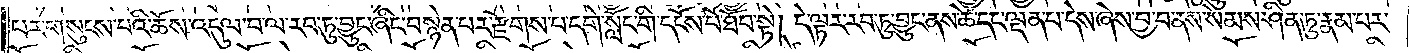པར་གསུངས་པའི་ཆོས་འདུལ་བ་ལ་རབ་ཏུ་བྱུང་ཞིང་བསྙེན་པར་རྫོགས་པ་དགེ་སློང་གི་དངོས་པོ་ཐོབ་སྟེ། དེ་ལྟར་རབ་ཏུ་བྱུང་ནས་ཚེ་དང་ལྡན་པ་དེས་ཞེས་བྱ་བ་ནས་སེམས་ཤིན་ཏུ་རྣམ་པར་
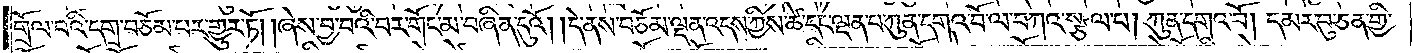གྲོལ་བའི་དགྲ་བཅོམ་པར་གྱུར་ཏོ། །ཞེས་བྱ་བའི་བར་གོང་མ་བཞིན་དུའོ། །དེ་ནས་བཅོམ་ལྡན་འདས་ཀྱིས་ཚེ་དང་ལྡན་པ་ཀུན་དགའ་བོ་ལ་བཀའ་སྩལ་པ། ཀུན་དགའ་བོ། དམར་བུ་ཅན་གྱི་
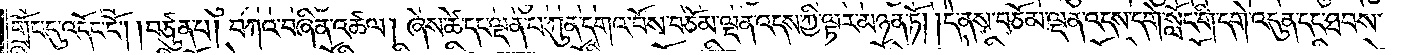གྲོང་དུ་འདོང་ངོ༌། །བཙུན་པ། བཀའ་བཞིན་འཚལ། ཞེས་ཚེ་དང་ལྡན་པ་ཀུན་དགའ་བོས་བཅོམ་ལྡན་འདས་ཀྱི་ལྟར་མཉན་ཏོ། །དེ་ནས་བཅོམ་ལྡན་འདས་དགེ་སློང་གི་དགེ་འདུན་དང་ཐབས་
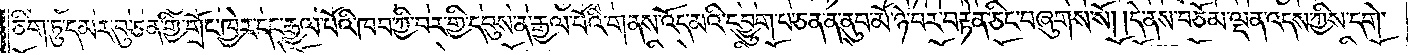ཅིག་ཏུ་དམར་བུ་ཅན་གྱི་གྲོང་ཁྱེར་དང་རྒྱལ་པོའི་ཁབ་ཀྱི་བར་གྱི་དབུས་ན་རྒྱལ་པོའི་གནས་འོད་མའི་དབྱུག་པ་ཅན་ན་ནུབ་མོ་ཉེ་བར་བརྟེན་ཅིང་བཞུགས་སོ། །དེ་ནས་བཅོམ་ལྡན་འདས་ཀྱིས་དགེ་
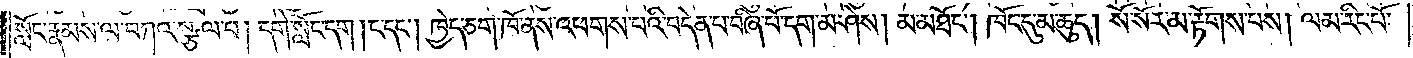སློང་རྣམས་ལ་བཀའ་སྩལ་པ། དགེ་སློང་དག །ང་དང༌། ཁྱེད་ཅག་ཁོ་ནས་འཕགས་པའི་བདེན་པ་བཞི་པོ་དག་མ་ཤེས། མ་མཐོང༌། ཁོང་དུ་མ་ཆུད། སོ་སོར་མ་རྟོགས་པས། ལམ་རིང་པོ་
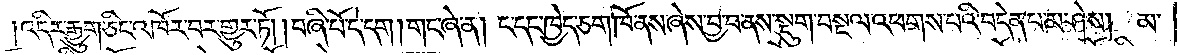འདིར་རྒྱུག་ཅིང་འཁོར་བར་གྱུར་ཏོ། །བཞི་པོ་དེ་དག །གང་ཞེ་ན། ང་དང་ཁྱེད་ཅག་ཁོ་ནས་ཞེས་བྱ་བ་ནས་སྡུག་བསྔལ་འཕགས་པའི་བདེན་པ་མ་ཤེས། མ་
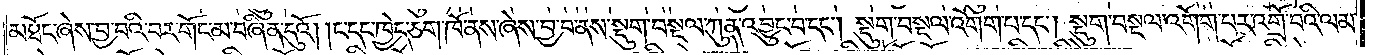མཐོང་ཞེས་བྱ་བའི་བར་གོང་མ་བཞིན་དུའོ། །ང་དང་ཁྱེད་ཅག་ཁོ་ནས་ཞེས་བྱ་བ་ནས་སྡུག་བསྔལ་ཀུན་འབྱུང་བ་དང༌། སྡུག་བསྔལ་འགོག་པ་དང༌། སྡུག་བསྔལ་འགོག་པར་འགྲོ་བའི་ལམ་
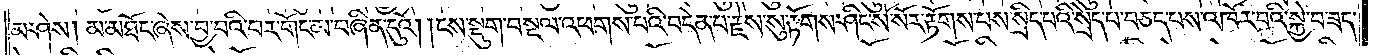མ་ཤེས། མ་མཐོང་ཞེས་བྱ་བའི་བར་གོང་མ་བཞིན་དུའོ། །ངས་སྡུག་བསྔལ་འཕགས་པའི་བདེན་པ་རྗེས་སུ་རྟོགས་ཤིང་སོ་སོར་རྟོགས་པས་སྲིད་པའི་སྲེད་པ་བཅད་པས་འཁོར་བའི་སྐྱེ་བ་ཟད་
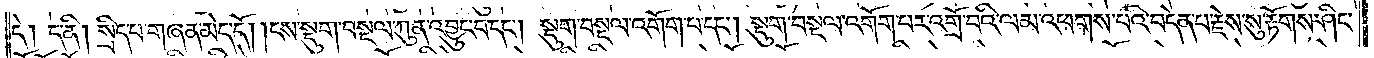དེ། ད་ནི། སྲིད་པ་གཞན་མེད་དོ། །ངས་སྡུག་བསྔལ་ཀུན་འབྱུང་བ་དང༌། སྡུག་བསྔལ་འགོག་པ་དང༌། སྡུག་བསྔལ་འགོག་པར་འགྲོ་བའི་ལམ་འཕགས་པའི་བདེན་པ་རྗེས་སུ་རྟོགས་ཤིང་
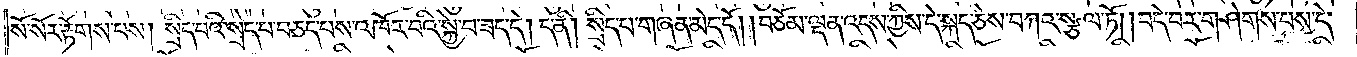སོ་སོར་རྟོགས་པས། སྲིད་པའི་སྲེད་པ་བཅད་པས་འཁོར་བའི་སྐྱེ་བ་ཟད་དེ། ད་ནི། སྲིད་པ་གཞན་མེད་དོ། །བཅོམ་ལྡན་འདས་ཀྱིས་དེ་སྐད་ཅེས་བཀའ་སྩལ་ཏོ། །བདེ་བར་གཤེགས་པས་དེ་
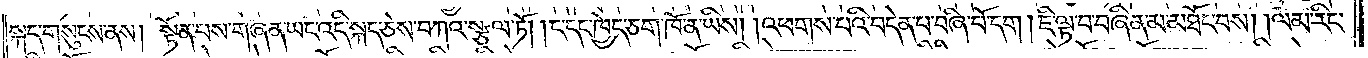སྐད་གསུངས་ནས། སྟོན་པས་གཞན་ཡང་འདི་སྐད་ཅེས་བཀའ་སྩལ་ཏོ། །ང་དང་ཁྱེད་ཅག་ཁོ་ན་ཡིས། །འཕགས་པའི་བདེན་པ་བཞི་པོ་དག །ཇི་ལྟ་བ་བཞིན་མ་མཐོང་བས། །ལམ་རིང་
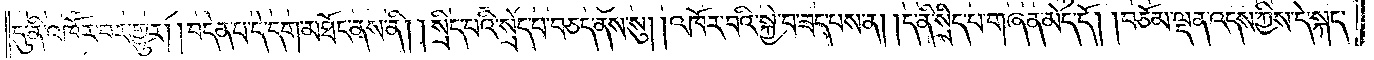དུ་ནི་འཁོར་བར་གྱུར། །བདེན་པ་དེ་དག་མཐོང་ནས་ནི། །སྲིད་པའི་སྲེད་པ་བཅད་ནས་སུ། །འཁོར་བའི་སྐྱེ་བ་ཟད་པས་ན། །ད་ནི་སྲིད་པ་གཞན་མེད་དོ། །བཅོམ་ལྡན་འདས་ཀྱིས་དེ་སྐད་
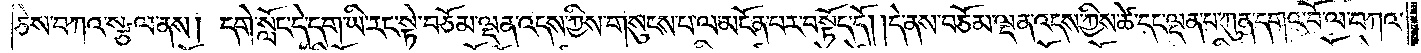ཅེས་བཀའ་སྩལ་ནས། དགེ་སློང་དེ་དག་ཡི་རང་སྟེ་བཅོམ་ལྡན་འདས་ཀྱིས་གསུངས་པ་ལ་མངོན་པར་བསྟོད་དོ། །དེ་ནས་བཅོམ་ལྡན་འདས་ཀྱིས་ཚེ་དང་ལྡན་པ་ཀུན་དགའ་བོ་ལ་བཀའ་
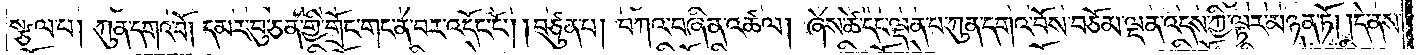སྩལ་པ། ཀུན་དགའ་བོ། །དམར་བུ་ཅན་གྱི་གྲོང་གང་ན་བར་འདོང་ངོ༌། །བཙུན་པ། བཀའ་བཞིན་འཚལ། ཞེས་ཚེ་དང་ལྡན་པ་ཀུན་དགའ་བོས་བཅོམ་ལྡན་འདས་ཀྱི་ལྟར་མཉན་ཏོ། །དེ་ནས་
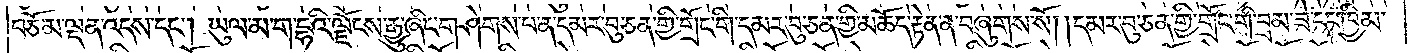བཅོམ་ལྡན་འདས་དང༌། ཡུལ་མ་ག་དྷའི་ལྗོངས་རྒྱུ་ཞིང་གཤེགས་པ་ན་དམར་བུ་ཅན་གྱི་གྲོང་གི་དམར་བུ་ཅན་གྱི་མཆོད་རྟེན་ན་བཞུགས་སོ། །དམར་བུ་ཅན་གྱི་གྲོང་གི་བྲམ་ཟེ་དང་ཁྱིམ་
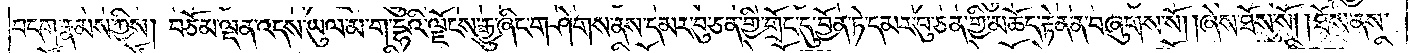བདག་རྣམས་ཀྱིས། བཅོམ་ལྡན་འདས་ཡུལ་མ་ག་དྷའི་ལྗོངས་རྒྱུ་ཞིང་གཤེགས་ནས་དམར་བུ་ཅན་གྱི་གྲོང་དུ་བྱོན་ཏེ་དམར་བུ་ཅན་གྱི་མཆོད་རྟེན་ན་བཞུགས་སོ། །ཞེས་ཐོས་སོ། །ཐོས་ནས་
